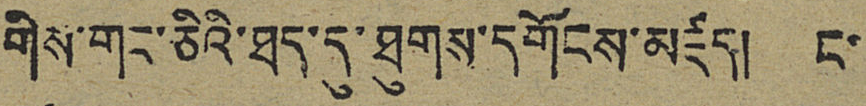གིས་གང་ཅིའི་ཐད་དུ་ཐུགས་དགོངས་མཛད། ང་
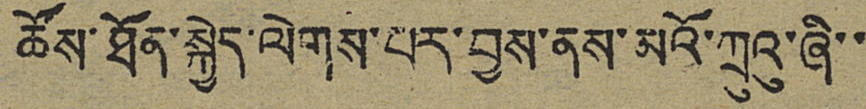ཚོས་ཐོན་སྐྱེད་ལེགས་པར་བྱས་ནས་མའོ་ཀྲུའུ་ཞི་་
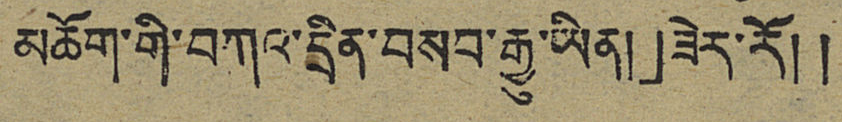མཆོག་གི་བཀའ་དྲིན་བསབ་རྒྱུ་ཡིན།」ཟེར་རོ། །
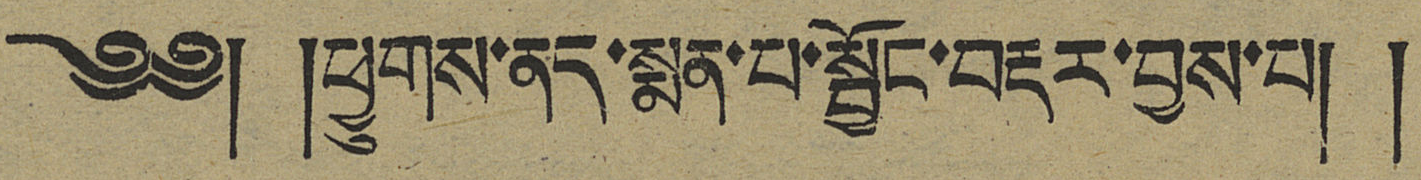༄༅། །ཕྱུགས་ནད་སྨན་པ་སྦྱོང་བརྡར་བྱས་པ། །
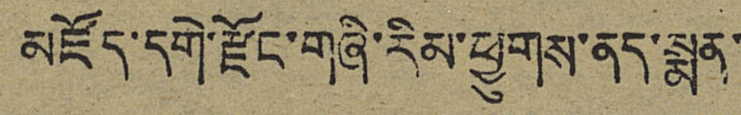མཛོད་དགེ་རྫོང་གཞི་རིམ་ཕྱུགས་ནད་སྨན་
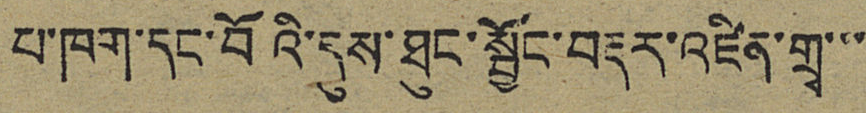པ་ཁག་དང་བོའི་དུས་ཐུང་སྦྱོང་བརྡར་འཛིན་གྲྭ་་་
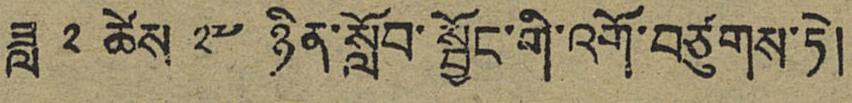ཟླ ༢ ཚེས ༡༧ ཉིན་སློབ་སྦྱོང་གི་འགོ་བཙུགས་ཏེ།
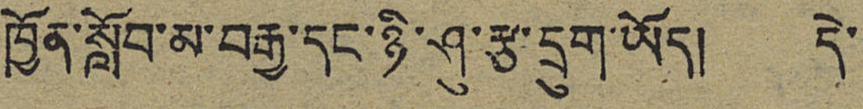ཁྱོན་སློབ་མ་བརྒྱ་དང་ཉི་ཤུ་རྩ་དྲུག་ཡོད། དེ་
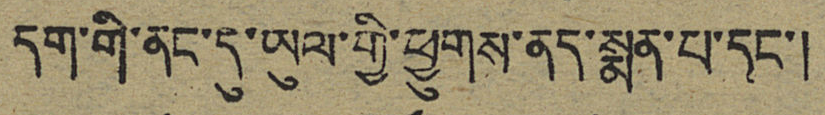དག་གི་ནང་དུ་ཡུལ་གྱི་ཕྱུགས་ནད་སྨན་པ་དང་།
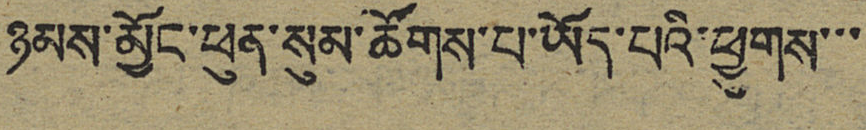ཉམས་མྱོང་ཕུན་སུམ་ཚོགས་པ་ཡོད་པའི་ཕྱུགས་་་
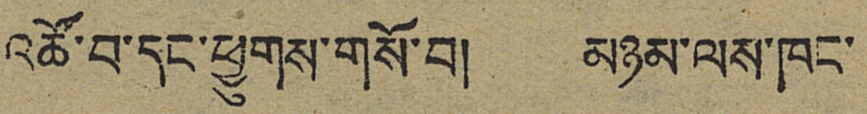འཚོ་བ་དང་ཕྱུགས་གསོ་བ། མཉམ་ལས་ཁང་
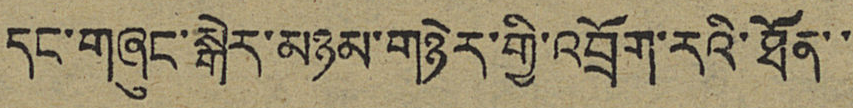དང་གཞུང་སྒེར་མཉམ་གཉེར་གྱི་འབྲོག་རའི་ཐོན་་
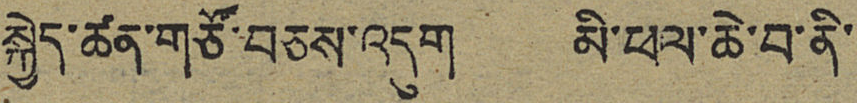སྐྱེད་ཚན་གཙོ་བཅས་འདུག མི་ཕལ་ཆེ་བ་ནི་
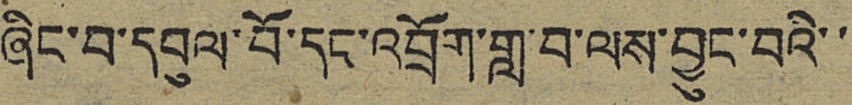ཞིང་བ་དབུལ་བོ་དང་འབྲོག་གླ་བ་ལས་བྱུང་བའི་་
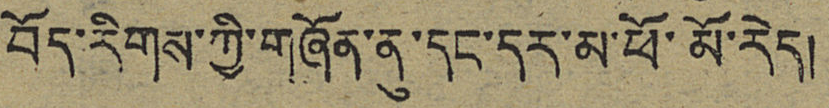བོད་རིགས་ཀྱི་གཞོན་ནུ་དང་དར་མ་ཕོ་མོ་རེད།
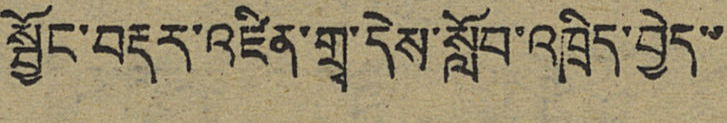སྦྱོང་བརྡར་འཛིན་གྲྭ་དེས་སློབ་འཁྲིད་བྱེད་་
